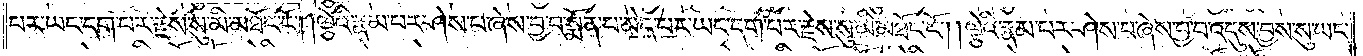པར་ཡང་དག་པར་རྗེས་སུ་མི་མཐོང་ངོ༌། །ལྕེའི་རྣམ་པར་ཤེས་པ་ཞེས་བྱ་བ་སྨོན་པ་མེད་པར་ཡང་དག་པར་རྗེས་སུ་མི་མཐོང་ངོ༌། །ལྕེའི་རྣམ་པར་ཤེས་པ་ཞེས་བྱ་བ་འདུས་བྱས་སུ་ཡང་
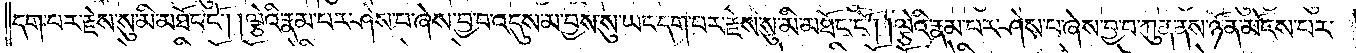དག་པར་རྗེས་སུ་མི་མཐོང་ངོ༌། །ལྕེའི་རྣམ་པར་ཤེས་པ་ཞེས་བྱ་བ་འདུས་མ་བྱས་སུ་ཡང་དག་པར་རྗེས་སུ་མི་མཐོང་ངོ༌། །ལྕེའི་རྣམ་པར་ཤེས་པ་ཞེས་བྱ་བ་ཀུན་ནས་ཉོན་མོངས་པར་
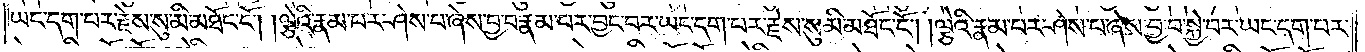ཡང་དག་པར་རྗེས་སུ་མི་མཐོང་ངོ༌། །ལྕེའི་རྣམ་པར་ཤེས་པ་ཞེས་བྱ་བ་རྣམ་པར་བྱང་བར་ཡང་དག་པར་རྗེས་སུ་མི་མཐོང་ངོ༌། །ལྕེའི་རྣམ་པར་ཤེས་པ་ཞེས་བྱ་བ་སྐྱེ་བར་ཡང་དག་པར་
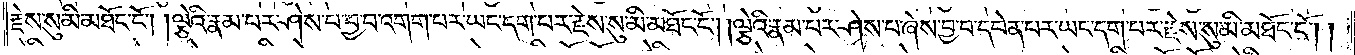རྗེས་སུ་མི་མཐོང་ངོ༌། །ལྕེའི་རྣམ་པར་ཤེས་པ་བྱ་བ་འགག་པར་ཡང་དག་པར་རྗེས་སུ་མི་མཐོང་ངོ༌། །ལྕེའི་རྣམ་པར་ཤེས་པ་ཞེས་བྱ་བ་དབེན་པར་ཡང་དག་པར་རྗེས་སུ་མི་མཐོང་ངོ༌། །
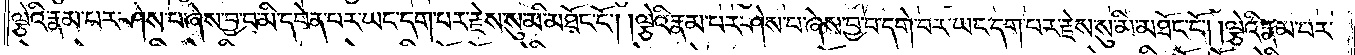ལྕེའི་རྣམ་པར་ཤེས་པ་ཞེས་བྱ་བ་མི་དབེན་པར་ཡང་དག་པར་རྗེས་སུ་མི་མཐོང་ངོ༌། །ལྕེའི་རྣམ་པར་ཤེས་པ་ཞེས་བྱ་བ་དགེ་བར་ཡང་དག་པར་རྗེས་སུ་མི་མཐོང་ངོ༌། །ལྕེའི་རྣམ་པར་
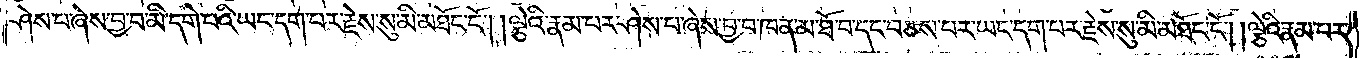ཤེས་པ་ཞེས་བྱ་བ་མི་དགེ་བའི་ཡང་དག་པར་རྗེས་སུ་མི་མཐོང་ངོ༌། །ལྕེའི་རྣམ་པར་ཤེས་པ་ཞེས་བྱ་བ་ཁ་ན་མ་ཐོ་བ་དང་བཅས་པར་ཡང་དག་པར་རྗེས་སུ་མི་མཐོང་ངོ༌། །ལྕེའི་རྣམ་པར་
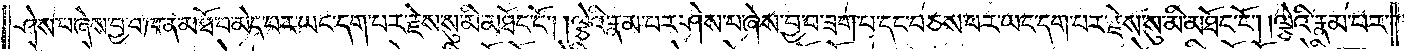ཤེས་པ་ཞེས་བྱ་བ་ཁ་ན་མ་ཐོ་བ་མེད་པར་ཡང་དག་པར་རྗེས་སུ་མི་མཐོང་ངོ༌། །ལྕེའི་རྣམ་པར་ཤེས་པ་ཞེས་བྱ་བ་ཟག་པ་དང་བཅས་པར་ཡང་དག་པར་རྗེས་སུ་མི་མཐོང་ངོ༌། །ལྕེའི་རྣམ་པར་
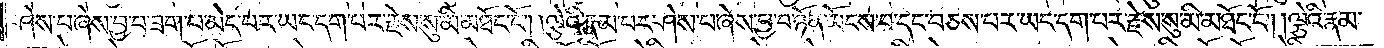ཤེས་པ་ཞེས་བྱ་བ་ཟག་པ་མེད་པར་ཡང་དག་པར་རྗེས་སུ་མི་མཐོང་ངོ༌། །ལྕེའི་རྣམ་པར་ཤེས་པ་ཞེས་བྱ་བ་ཉོན་མོངས་པ་དང་བཅས་པར་ཡང་དག་པར་རྗེས་སུ་མི་མཐོང་ངོ༌། །ལྕེའི་རྣམ་
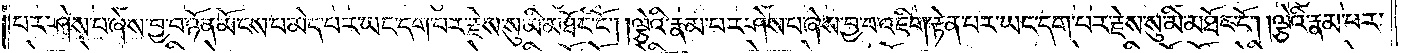པར་ཤེས་པ་ཞེས་བྱ་བ་ཉོན་མོངས་པ་མེད་པར་ཡང་དག་པར་རྗེས་སུ་མི་མཐོང་ངོ༌། །ལྕེའི་རྣམ་པར་ཤེས་པ་ཞེས་བྱ་བ་འཇིག་རྟེན་པར་ཡང་དག་པར་རྗེས་སུ་མི་མཐོང་ངོ༌། །ལྕེའི་རྣམ་པར་
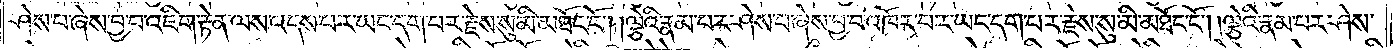ཤེས་པ་ཞེས་བྱ་བ་འཇིག་རྟེན་ལས་འདས་པར་ཡང་དག་པར་རྗེས་སུ་མི་མཐོང་ངོ༌། །ལྕེའི་རྣམ་པར་ཤེས་པ་ཞེས་བྱ་བ་འཁོར་བར་ཡང་དག་པར་རྗེས་སུ་མི་མཐོང་ངོ༌། །ལྕེའི་རྣམ་པར་ཤེས་
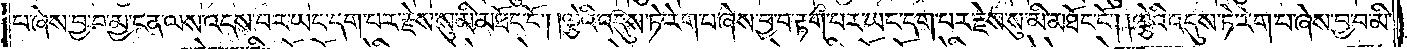པ་ཞེས་བྱ་བ་མྱ་ངན་ལས་འདས་བར་ཡང་དག་པར་རྗེས་སུ་མི་མཐོང་ངོ༌། །ལྕེའི་འདུས་ཏེ་རེག་པ་ཞེས་བྱ་བ་རྟག་པར་ཡང་དག་པར་རྗེས་སུ་མི་མཐོང་ངོ༌། །ལྕེའི་འདུས་ཏེ་རེག་པ་ཞེས་བྱ་བ་མི་
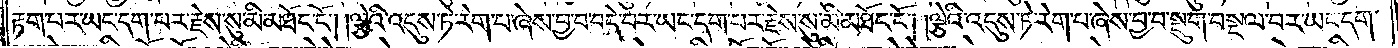རྟག་པར་ཡང་དག་པར་རྗེས་སུ་མི་མཐོང་ངོ༌། །ལྕེའི་འདུས་ཏེ་རེག་པ་ཞེས་བྱ་བ་བདེ་བར་ཡང་དག་པར་རྗེས་སུ་མི་མཐོང་ངོ༌། །ལྕེའི་འདུས་ཏེ་རེག་པ་ཞེས་བྱ་བ་སྡུག་བསྔལ་བར་ཡང་དག་
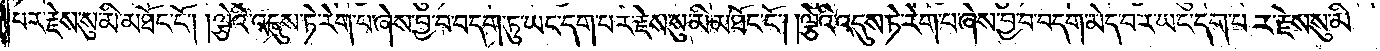པར་རྗེས་སུ་མི་མཐོང་ངོ༌། །ལྕེའི་འདུས་ཏེ་རེག་པ་ཞེས་བྱ་བ་བདག་ཏུ་ཡང་དག་པར་རྗེས་སུ་མི་མཐོང་ངོ༌། །ལྕེའི་འདུས་ཏེ་རེག་པ་ཞེས་བྱ་བ་བདག་མེད་བར་ཡང་དག་པར་རྗེས་སུ་མི་
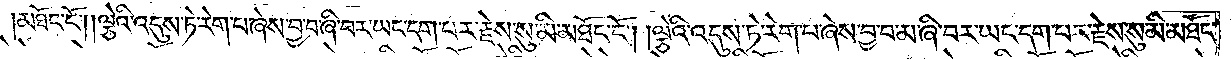མཐོང་ངོ༌། །ལྕེའི་འདུས་ཏེ་རེག་པ་ཞེས་བྱ་བ་ཞི་བར་ཡང་དག་པར་རྗེས་སུ་མི་མཐོང་ངོ༌། །ལྕེའི་འདུས་ཏེ་རེག་པ་ཞེས་བྱ་བ་མ་ཞི་བར་ཡང་དག་པར་རྗེས་སུ་མི་མཐོང་
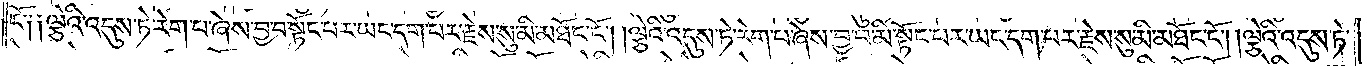ངོ༑ ༑ལྕེའི་འདུས་ཏེ་རེག་པ་ཞེས་བྱ་བ་སྟོང་པར་ཡང་དག་པར་རྗེས་སུ་མི་མཐོང་ངོ༌། །ལྕེའི་འདུས་ཏེ་རེག་པ་ཞེས་བྱ་བ་མི་སྟོང་པར་ཡང་དག་པར་རྗེས་སུ་མི་མཐོང་ངོ༌། །ལྕེའི་འདུས་ཏེ་
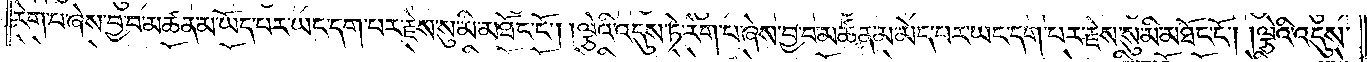རེག་པ་ཞེས་བྱ་བ་མཚན་མ་ཡོད་པར་ཡང་དག་པར་རྗེས་སུ་མི་མཐོང་ངོ༌། །ལྕེའི་འདུས་ཏེ་རེག་པ་ཞེས་བྱ་བ་མཚན་མ་མེད་པར་ཡང་དག་པར་རྗེས་སུ་མི་མཐོང་ངོ༌། །ལྕེའི་འདུས་ཏེ་
